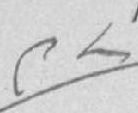༩༨
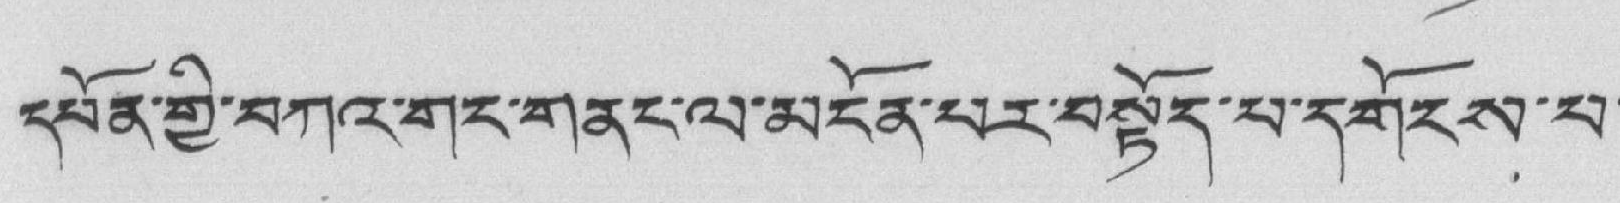དཔོན་གྱི་བཀའ་གང་གནང་ལ་མངོན་པར་བསྟོད་པ་དགོངས་པ་
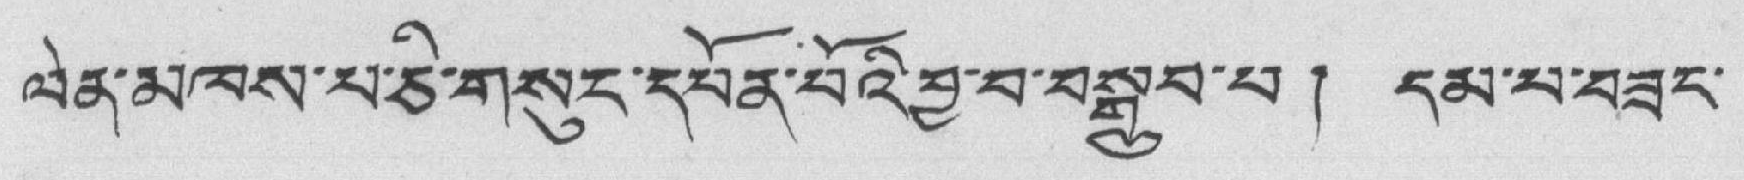ལེན་མཁས་པ་ཅི་གསུང་དཔོན་པོའི་བྱ་བ་བསྒྲུབ་པ ། དམ་པ་བཟང་
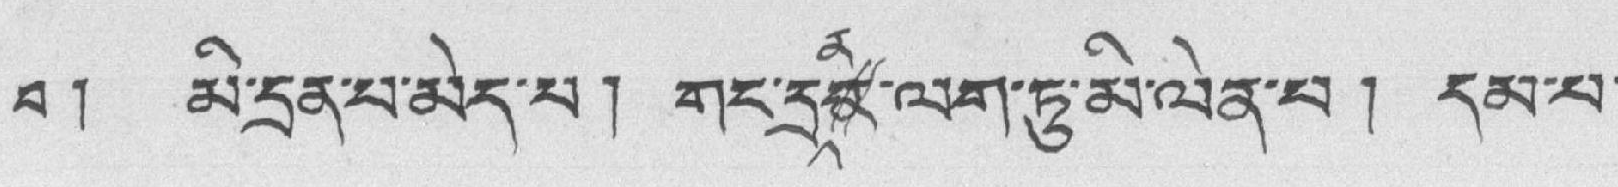བ ། མི་དྲན་པ་མེད་པ། གང་དྲནན་ལག་ཏུ་མི་ལེན་པ། དམ་པ་
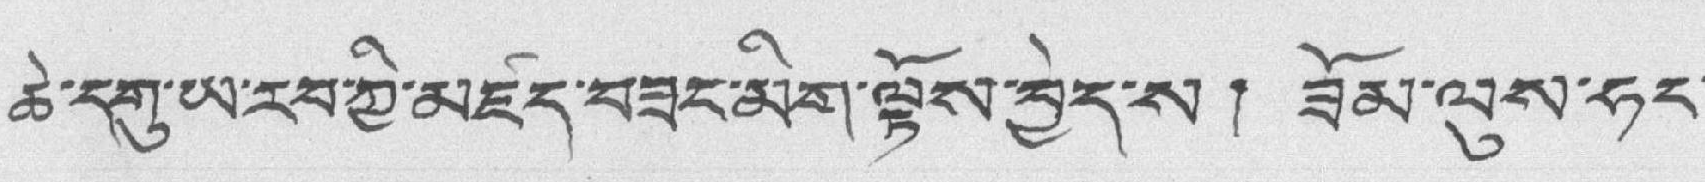ཆེ་དགུ་ཡ་རབ་ཀྱི་མཛད་བཟང་མིག་ལྟོས་བྱེད་ས། ཟོམ་ལུས་ཧང་
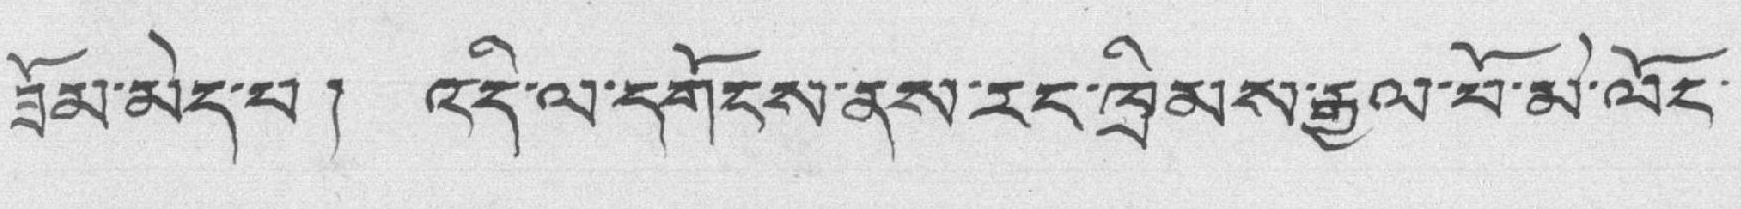ཟོམ་མེད་པ། འདི་ལ་དགོངས་ནས་རང་ཁྲིམས་རྒྱལ་པོ་མེ་ལོང་
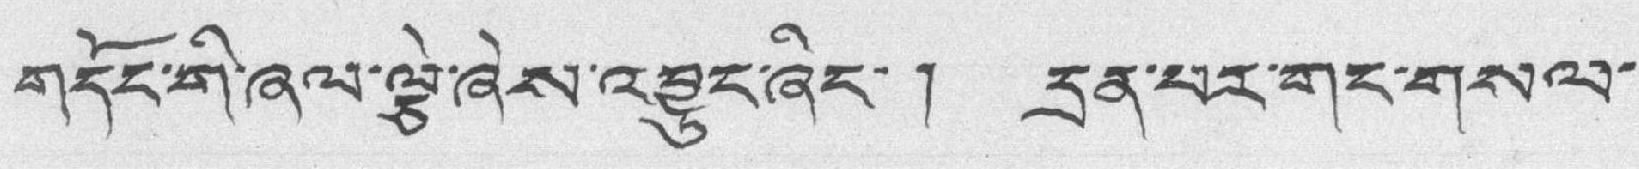གདོང་གི་ཞལ་ལྕེ་ཞེས་འབྱུང་ཞིང་། དྲན་པར་གང་གསལ་
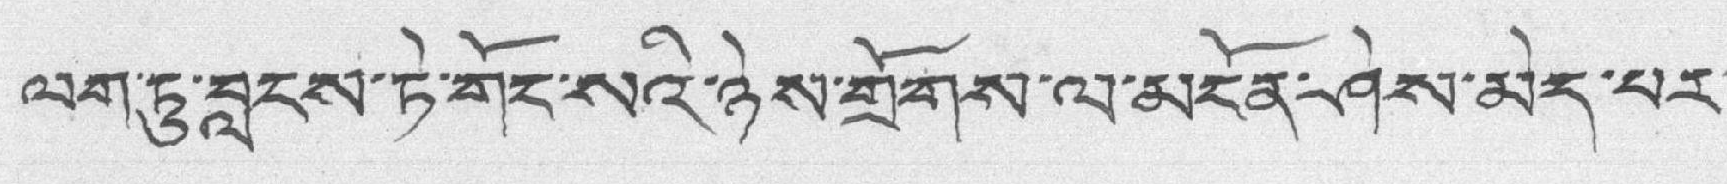ལག་ཏུ་བླངས་ཏེ་གོང་སའི་ཉེས་གྲོགས་ལ་མངོན་ཤེས་མེད་པར་
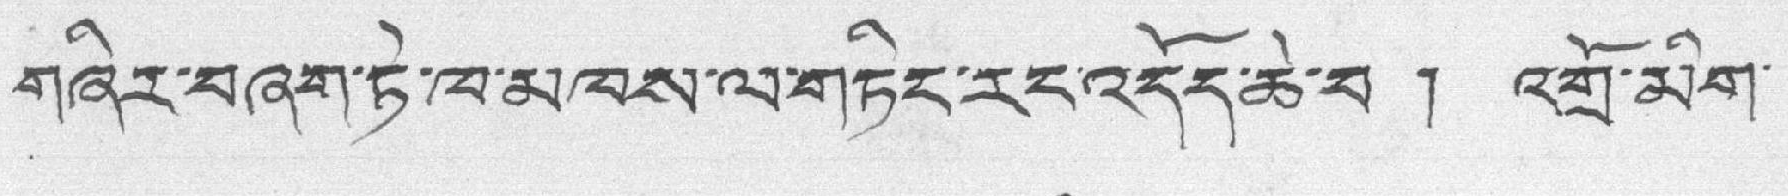གཞིར་བཞག་ཏེ་ཁ་མཁས་ལ་གཏིང་རང་འདོད་ཆེ་བ ། འགྲོ་མིག་
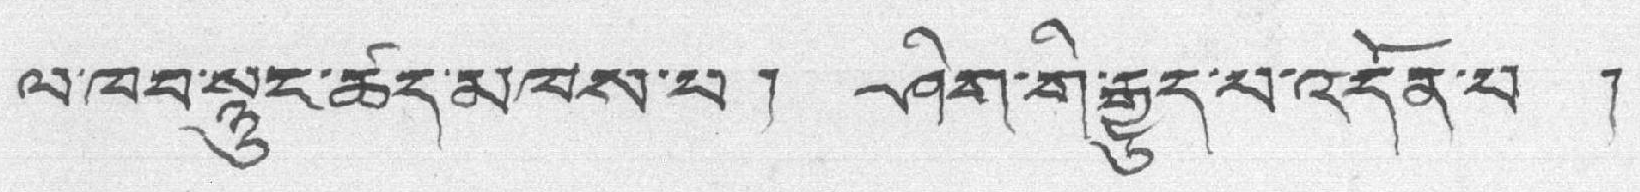ལ་ཁབ་སྙུང་ཚད་མཁས་པ ། ཤིག་གི་རྒྱུད་པ་འདོན་པ །
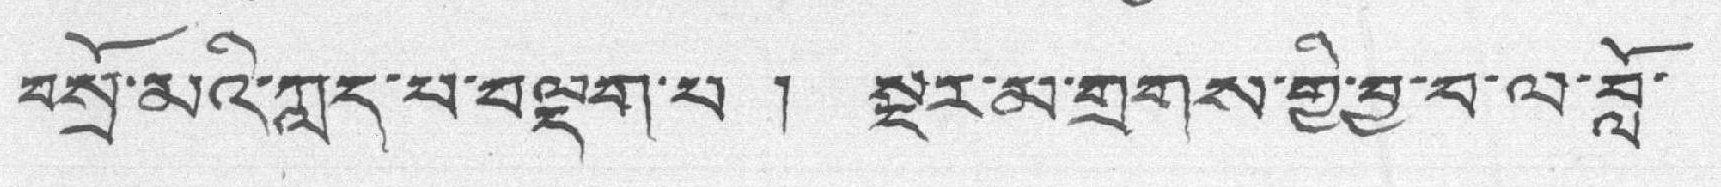བསྲོ་མའི་ཀླད་པ་བལྡག་པ ། སྔར་མ་གྲགས་གྱི་བྱ་བ་ལ་བློ་
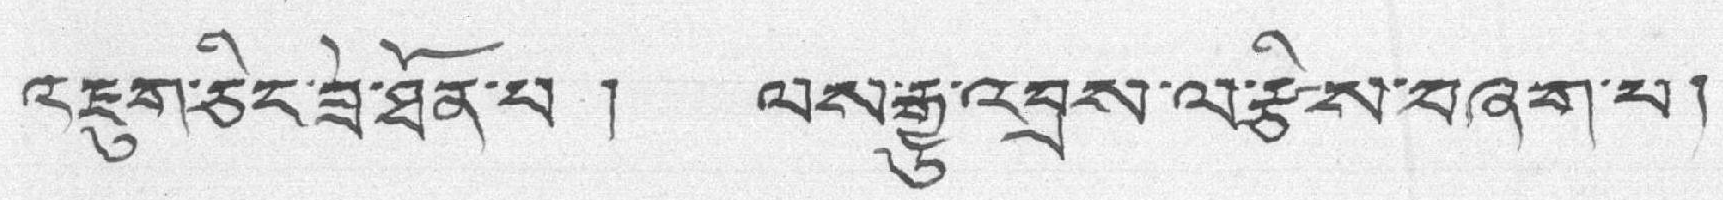འཇུག་ཅིང་ཟེ་ཐོན་པ ། ལས་རྒྱུ་འབྲས་ལ་རྩིས་བཞག་པ།
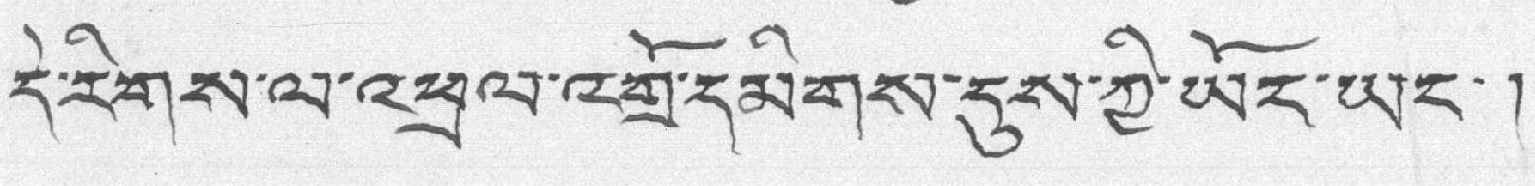དེ་རིགས་ལ་འཕྲལ་འགྲོ་དམིགས་དུས་ཀྱི་ཡོང་ཡང་།
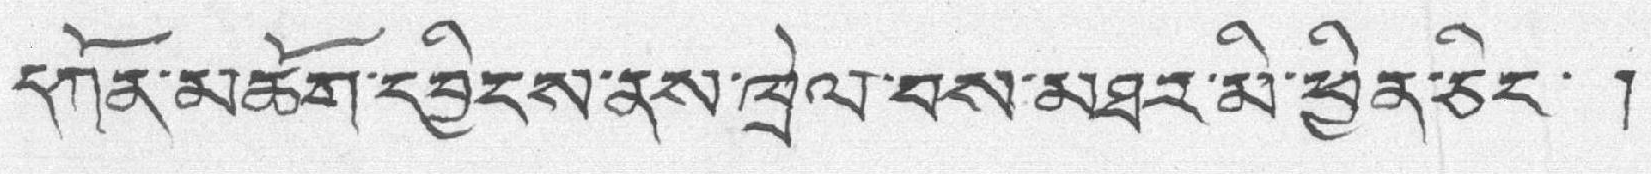དཀོན་མཆོག་དབྱིངས་ནས་ཁྲེལ་བས་མཐར་མི་ཕྱིན་ཅང་ །
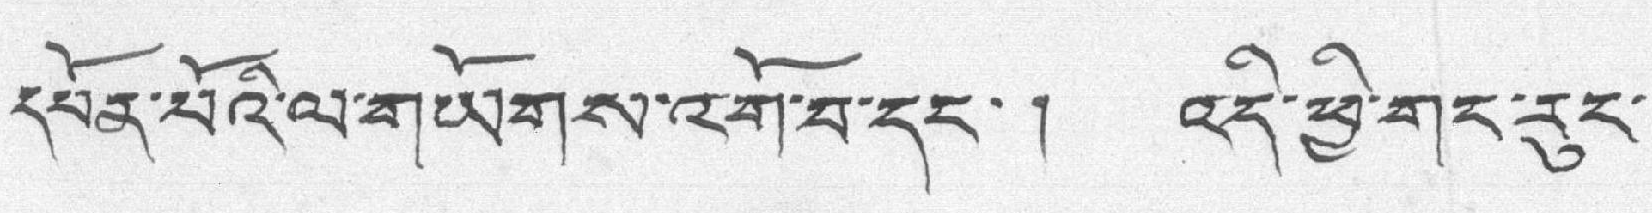དཔོན་པོའི་ལ་གཡོགས་འགོ་བ་དང་ ། འདི་ཕྱི་གང་རུང་
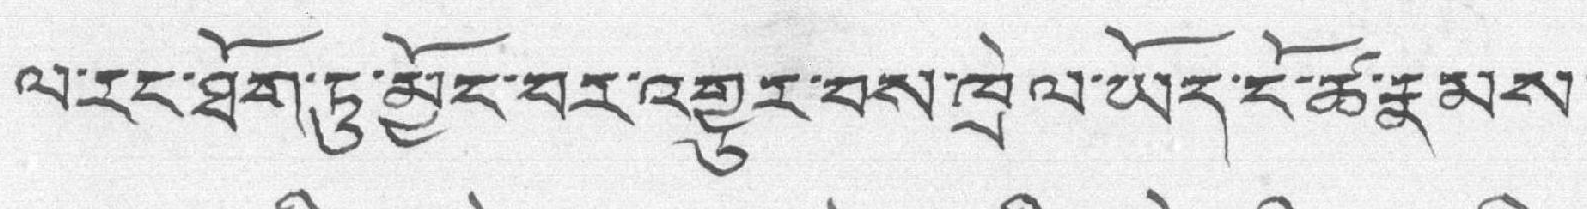ལ་རང་ཐོག་ཏུ་མྱོང་བར་འགྱུར་བས་ཁྲེལ་ཡོད་ངོ་ཚ་རྣམས་
